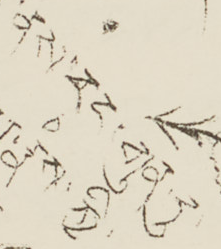ནས་དང་གུན་དུ་
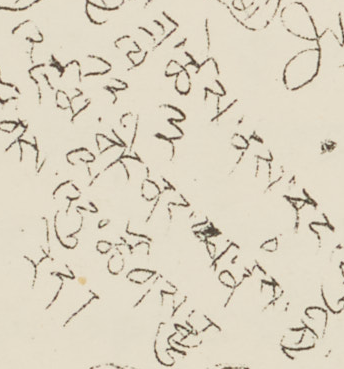འཛམ་གླིང་ནང་པ་རྣཾས་ཀྱི་
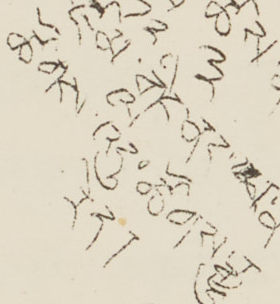ཚོགས་འདུ་ཚོགས་རྒྱུ་
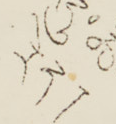རེད།
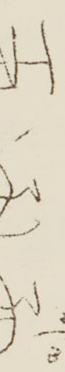རྒྱ་མཚོ་
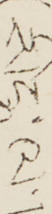སིངྒ་ལ་།
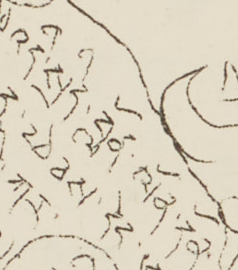འདི་སྲིད་བློན་ལོན་དོན་
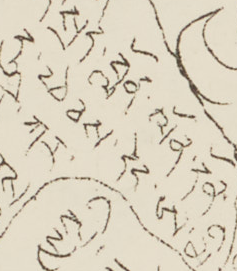དུ་ཕེབས་དེང་ཨ་མི་
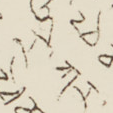རི་ཀར་
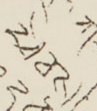ཕེབས
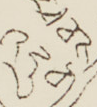འདུག
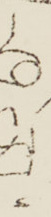ཤྱིམ་
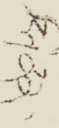ཧ་ནན་
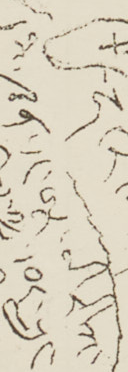དའི་ཝན་དང་ཨ་མི་རི་ཀ་
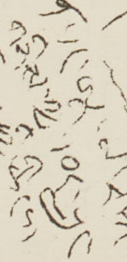གཉིས་ཀྱི་དབར་སྲུང་
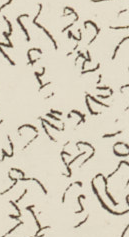སྐྱོབས་ཀྱི་ཆིངས་
